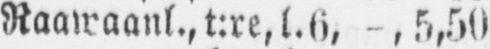Raawaanl., t:re,l.6, - ,5,50
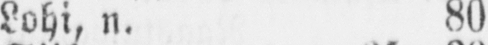Lohi, n. 80
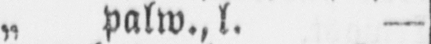„ palw., l. —
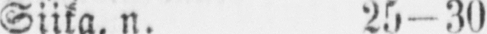Siika, n. 25—30
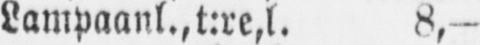Lampaanl., t:re,l. 8,-
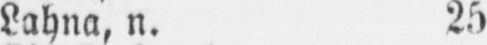Lahna, n. 25
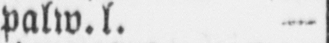„ pallw.l. —
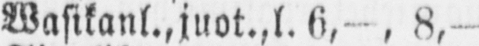Wasikanl., juot.,l. 6,—, 8,—
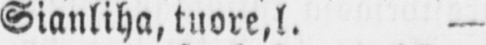Sianliha, tuore,l. —
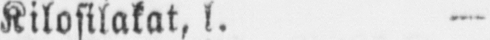Kilosilakat, l. —
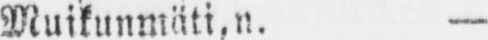Muikunmäti, n. —
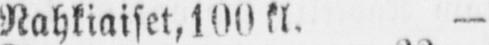Nahkiaiset, 100 kl. —
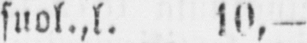„ suol.,l. 10,—
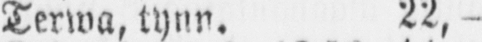Terwa, tynn. 22, -
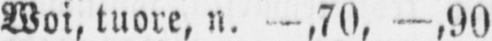Woi, tuore, n. —,70, -,90
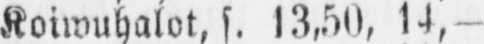Koiwuhalot, s. 13,50, 14,-
